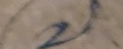༧
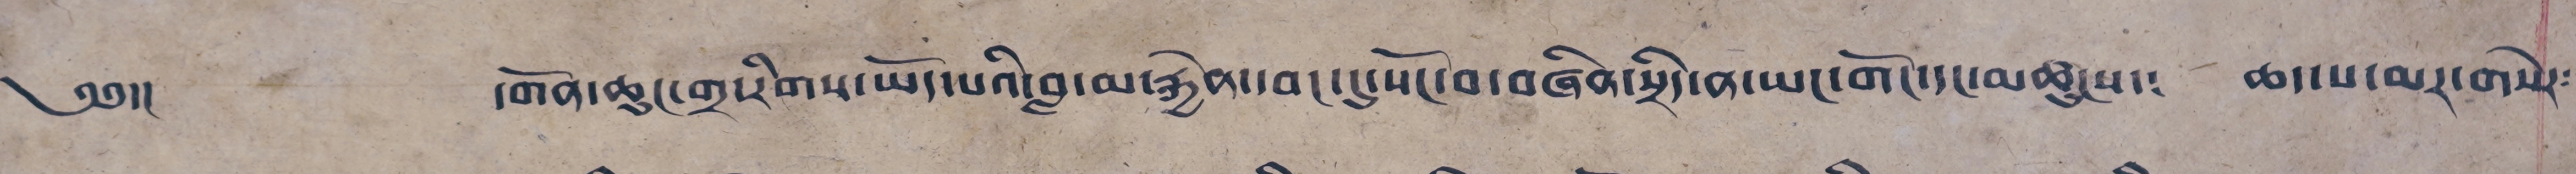༄༅།། དགོན་ཆུང་གྲ་རིགས་ཡོད་པའི་བླ་མ་རྐྱེན་དབང་དུ་སོང་བ་བཞིན་སྲིད་ན་ཡང་གོང་དང་མཚུངས་༴ ཆད་པ་མར་གསེར༴
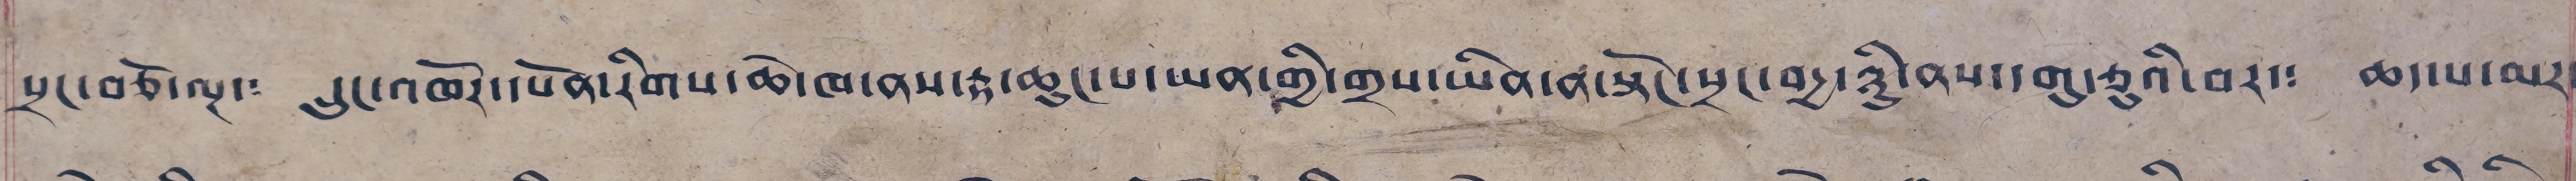སྲང་བཅོ་ལྔ་༴ དྲུང་འཁོར་དཔོན་རིགས་ཆེ་ཁ་ནས་རྟ་ཆུང་པ་ཡན་གྱི་གྲས་ཡིན་ན་སྟོང་སྲང་བདྱ་ཉིུ་ནས་དགུ་ཅུའི་བར་༴ ཆད་པ་མར་
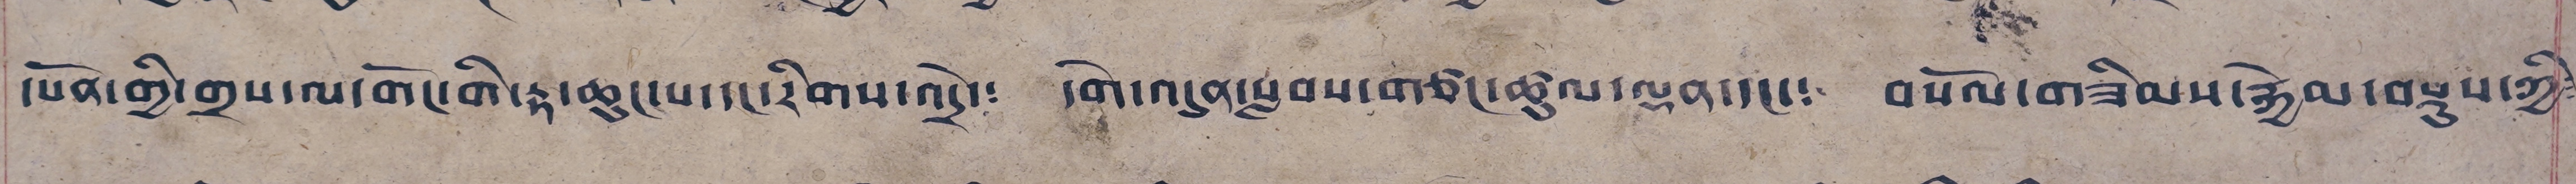དཔོན་གྱི་གྲས་ལ་གོང་གི་རྟ་ཆུང་པ་དང་རིགས་འདྲེ་༴ དགེ་འདུན་སླབས་གཙང་ཚུལ་ལྡན་དང་༴ བསོལ་གཟིམས་སྐྱེམ་བསྡུས་ཀྱི༴
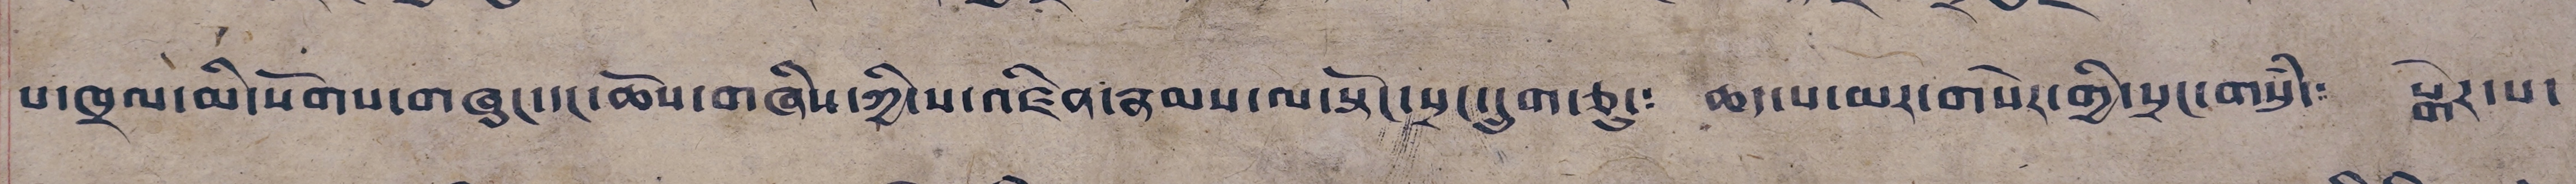པ་ཁྲལ་མི་སོགས་གཞུང་དང་ཆོས་གཞིས་ཀྱི་ས་འཛིན་རྣམས་ལ་སྟོང་སྲང་དྲུག་ཅུ་༴ ཆད་པ་མར་གསེར་གྱི་སྲང་གསུཾ་༴ སྒེར་པ་
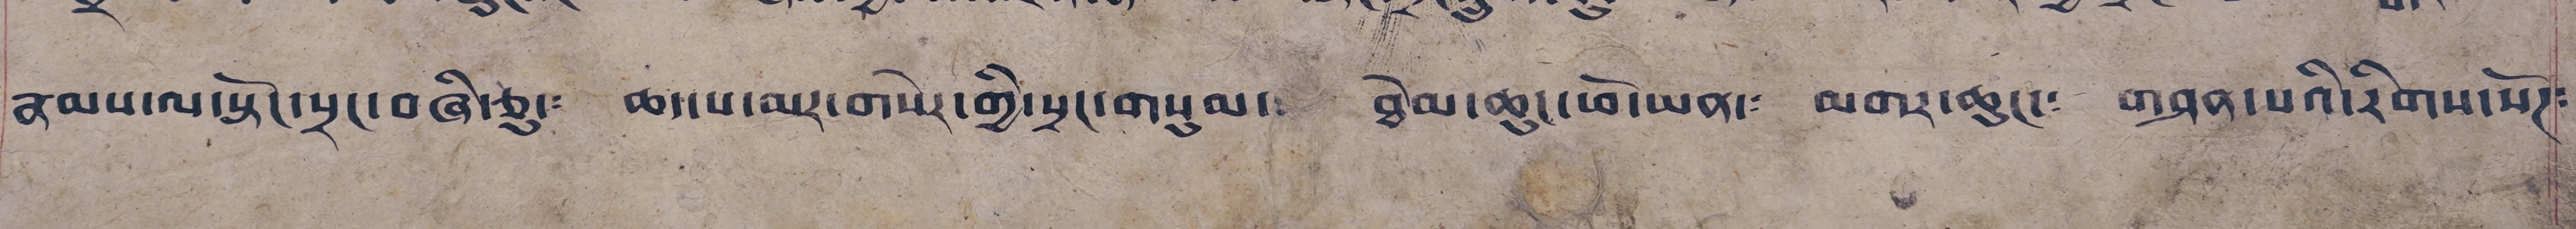རྣམས་ལ་སྟོང་སྲང་བཞི་ཅུ་༴ ཆད་པ་མར་གསེར་གྱི་སྲང་གསུམ་༴ ཐེམ་ཆུང་ཕོ་ཡན་༴ མགར་ཆུང་༴ གཤན་པའི་རིགས་སོཊ༴
